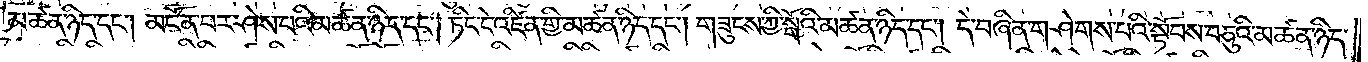མཚན་ཉིད་དང༌། མངོན་པར་ཤེས་པའི་མཚན་ཉིད་དང༌། ཏིང་ངེ་འཛིན་གྱི་མཚན་ཉིད་དང༌། གཟུངས་ཀྱི་སྒོའི་མཚན་ཉིད་དང༌། དེ་བཞིན་གཤེགས་པའི་སྟོབས་བཅུའི་མཚན་ཉིད་
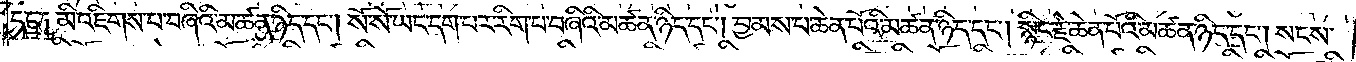དང་༑ མི་འཇིགས་པ་བཞིའི་མཚན་ཉིད་དང༌། སོ་སོ་ཡང་དག་པར་རིག་པ་བཞིའི་མཚན་ཉིད་དང༌། བྱམས་པ་ཆེན་པོའི་མཚན་ཉིད་དང༌། སྙིང་རྗེ་ཆེན་པོའི་མཚན་ཉིད་དང༌། སངས་
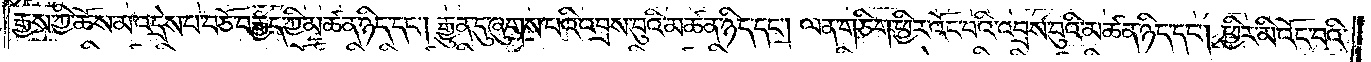རྒྱས་ཀྱི་ཆོས་མ་འདྲེས་པ་བཅོ་བརྒྱད་ཀྱི་མཚན་ཉིད་དང༌། རྒྱུན་དུ་ཞུགས་པའི་འབྲས་བུའི་མཚན་ཉིད་དང༌། ལན་གཅིག་ཕྱིར་འོང་བའི་འབྲས་བུ་མཚན་ཉིད་དང༌། ཕྱིར་མི་འོང་བའི་
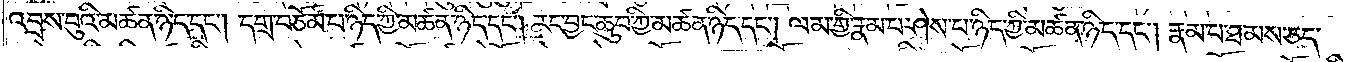འབྲས་བུའི་མཚན་ཉིད་དང༌། དགྲ་བཅོམ་པ་ཉིད་ཀྱི་མཚན་ཉིད་དང༌། རང་བྱང་ཆུབ་ཀྱི་མཚན་ཉིད་དང༌། ལམ་གྱི་རྣམ་པ་ཤེས་པ་ཉིད་ཀྱི་མཚན་ཉིད་དང༌། རྣམ་པ་ཐམས་ཅད་
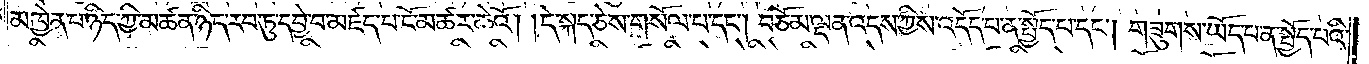མཁྱེན་པ་ཉིད་ཀྱི་མཚན་ཉིད་རབ་ཏུ་དབྱེ་བ་མཛད་པ་ངོ་མཚར་ཆེའོ། །དེ་སྐད་ཅེས་གསོལ་པ་དང༌། བཅོམ་ལྡན་འདས་ཀྱིས་འདོད་པ་ན་སྤྱོད་པ་དང༌། གཟུགས་ཡོད་པ་ན་སྤྱོད་པའི་
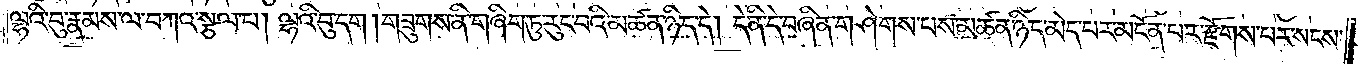ལྷའི་བུ་རྣམས་ལ་བཀའ་སྩལ་པ། ལྷའི་བུ་དག། གཟུགས་ནི་གཞིག་ཏུ་རུང་བའི་མཚན་ཉིད་དེ། དེ་ནི་དེ་བཞིན་གཤེགས་པས་མཚན་ཉིད་མེད་པར་མངོན་པར་རྫོགས་པར་སངས་
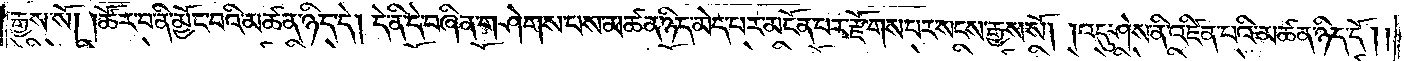རྒྱས་སོ། །ཚོར་བ་ནི་མྱོང་བའི་མཚན་ཉིད་དོ། དེ་ནི་དེ་བཞིན་གཤེགས་པས་མཚན་ཉིད་མེད་པར་མངོན་པར་རྫོགས་པར་སངས་རྒྱས་སོ། །འདུ་ཤེས་ནི་འཛིན་པའི་མཚན་ཉིད་དོ། །
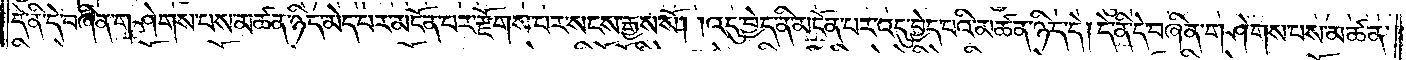དེ་ནི་དེ་བཞིན་གཤེགས་པས་མཚན་ཉིད་མེད་པར་མངོན་པར་རྫོགས་པར་སངས་རྒྱས་སོ། །འདུ་བྱེད་ནི་མངོན་པར་འདུ་བྱེད་པའི་མཚན་ཉིད་དེ། དེ་ནི་དེ་བཞིན་གཤེགས་པས་མཚན་
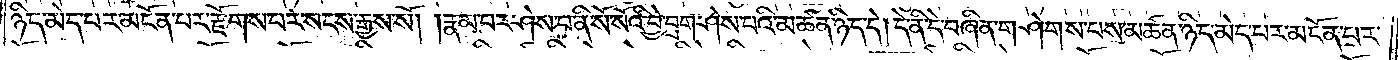ཉིད་མེད་པར་མངོན་པར་རྫོགས་པར་སངས་རྒྱས་སོ། །རྣམ་པར་ཤེས་པ་ནི་སོ་སོའི་བྱེ་བྲག་ཤེས་པའི་མཚན་ཉིད་དེ། དེ་ནི་དེ་བཞིན་གཤེགས་པས་མཚན་ཉིད་མེད་པར་མངོན་པར་
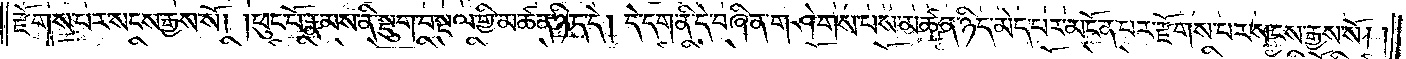རྫོགས་པར་སངས་རྒྱས་སོ། །ཕུང་པོ་རྣམས་ནི་སྡུག་བསྔལ་གྱི་མཚན་ཉིད་དེ། དེ་དག་ནི་དེ་བཞིན་གཤེགས་པས་མཚན་ཉིད་མེད་པར་མངོན་པར་རྫོགས་པར་སངས་རྒྱས་སོ། །
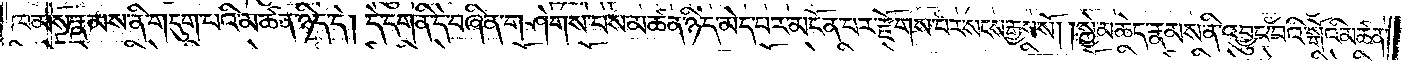ཁམས་རྣམས་མི་གདུག་པའི་མཚན་ཉིད་དེ། དེ་དག་ནི་དེ་བཞིན་གཤེགས་པས་མཚན་ཉིད་མེད་པར་མངོན་པར་རྫོགས་པར་སངས་རྒྱས་སོ། །སྐྱེ་མཆེད་རྣམས་ནི་འབྱུང་པའི་སྒོའི་མཚན་
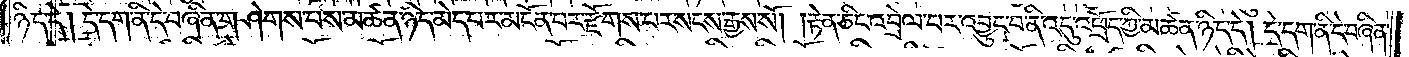ཉིད་དེ། དེ་དག་ནི་དེ་བཞིན་གཤེགས་པས་མཚན་ཉིད་མེད་པར་མངོན་པར་རྫོགས་པར་སངས་རྒྱས་སོ། །རྟེན་ཅིང་འབྲེལ་བར་འབྱུང་བ་ནི་འདུ་འཕྲོད་ཀྱི་མཚན་ཉིད་དེ། དེ་དག་ནི་དེ་བཞིན་
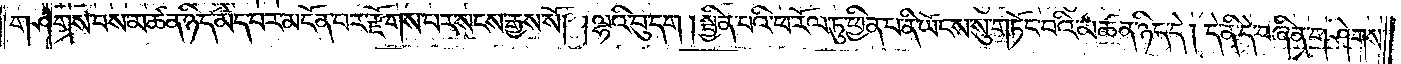གཤེགས་པས་མཚན་ཉིད་མེད་པར་མངོན་པར་རྫོགས་པར་སངས་རྒྱས་སོ། །ལྷའི་བུ་དག། སྦྱིན་པའི་ཕ་རོལ་ཏུ་ཕྱིན་པ་ནི་ཡོངས་སུ་གཏོང་བའི་མཚན་ཉིད་དེ། །དེ་ནི་དེ་བཞིན་གཤེགས་
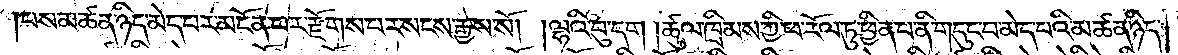པས་མཚན་ཉིད་མེད་པར་མངོན་པར་རྫོགས་པར་སངས་རྒྱས་སོ། །ལྷའི་བུ་དག། ཚུལ་ཁྲིམས་ཀྱི་ཕ་རོལ་ཏུ་ཕྱིན་པ་ནི་གདུང་བ་མེད་པའི་མཚན་ཉིད་
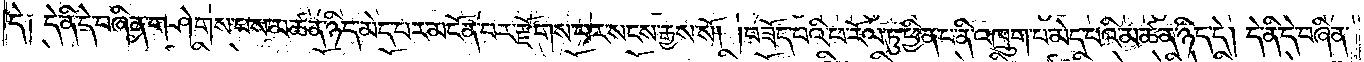དེ༑ དེ་ནི་དེ་བཞིན་གཤེགས་པས་མཚན་ཉིད་མེད་པར་མངོན་པར་རྫོགས་པར་སངས་རྒྱས་སོ། །བཟོད་པའི་ཕ་རོལ་ཏུ་ཕྱིན་པ་ནི་འཁྲུག་པ་མེད་པའི་མཚན་ཉིད་དེ། དེ་ནི་དེ་བཞིན་
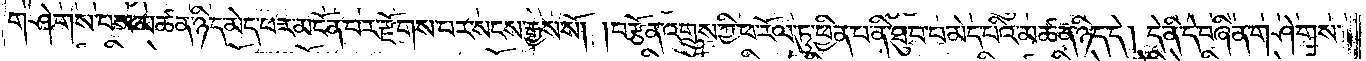གཤེགས་པས་མཚན་ཉིད་མེད་པར་མངོན་པར་རྫོགས་པར་སངས་རྒྱས་སོ། །བརྩོན་འགྲུས་ཀྱི་ཕ་རོལ་ཏུ་ཕྱིན་པ་ནི་ཐུབ་པ་མེད་པའི་མཚན་ཉིད་དེ། དེ་ནི་དེ་བཞིན་གཤེགས་
